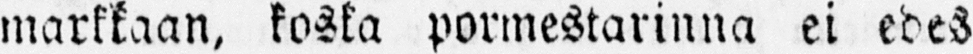markkaan, koska pormestarinna ei edes
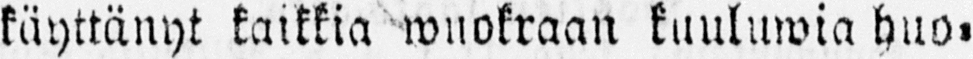käyttänyt kaikkia wuokraan kuuluwia huo-
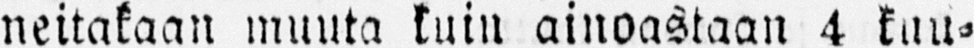neitakaan muuta kuin ainoastaan 4 kuu-
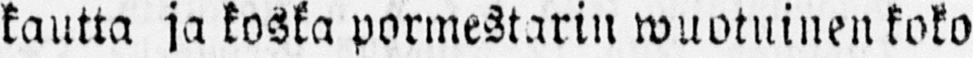kautta ja koska pormestarin wuotuinen koko
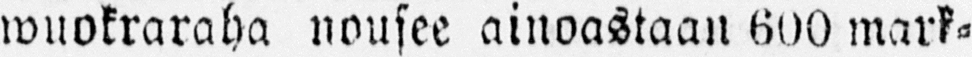wuokraraha nousee ainoastaan 600 mark-
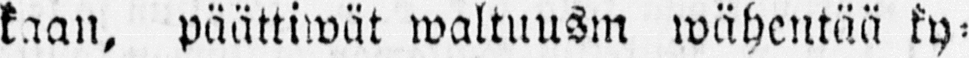kaan, päättiwät waltuusm wähentää ky-
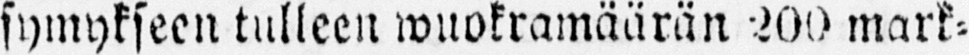symykseen tulleen wuokramäärän 200 mark-
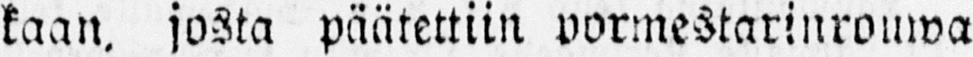kaan, josta päätettiin pormestarinrouwa
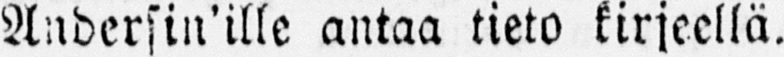Andersin'ille antaa tieto kirjeellä.
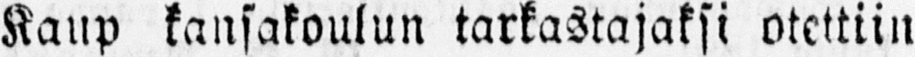Kaup kansakoulun tarkastajaksi otettiin
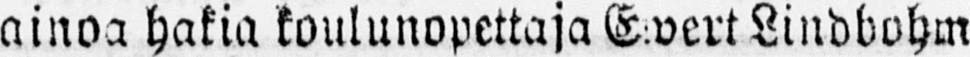ainoa hakia koulunopettaja E:vert Lindbohm
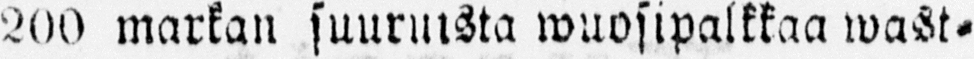200 markan suuruista wuosipalkkaa wast-
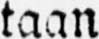taan
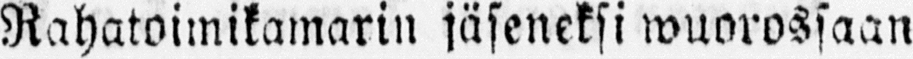Rahatoimikamarin jäseneksi wuorossaan
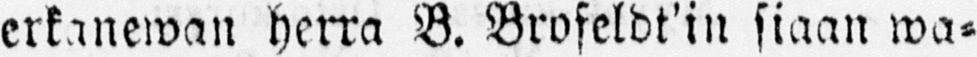erkanewan herra B. Brofeldt'in siaan wa-
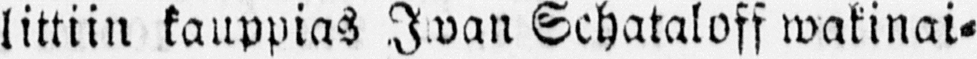littiin kauppias Iwan Schataloff wakinai-
